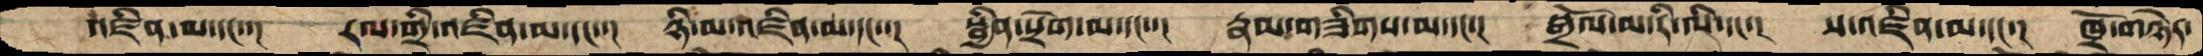འཛིན་མ་དང་་།  རལ་གྲི་འཛིན་མ་དང་་།  ཉི་མ་འཛིན་མ་དང་་།  སྦྱིན་སྲེག་མ་དང་་།  རྣམ་གཟིགས་མ་་དང་་།  སྒྲོལ་མ་རི་ལི་དང་་།  ས་འཛིན་མ་དང་་།  ཁྲོ་གཉེར་
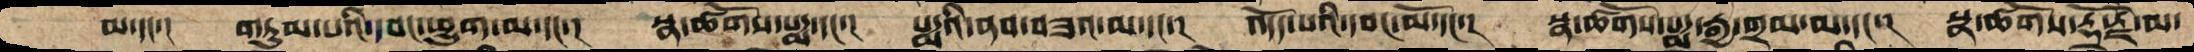མ་དང་།  གཏུམ་པའི་དབང་ཕྱུག་མ་དང་།  སྣ་ཚོགས་པདྨ་དང་།  པདྨའི་ནབ་བཟའ་མ་དང་།  འདོད་པའིདབང་མོ་དང་།  སྣ་ཚོགས་པདྨ་རྒྱ་གྲམ་མ་དང་།  སྣ་ཚོགས་རྡོ་རྗེ་མ་
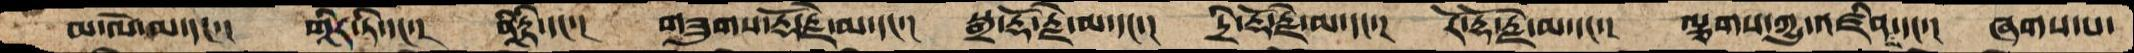མ་ལེ་མ་དང་།  གཱིར་ཏི་དང་།  ནཱིརྟི་དང་།  གཟུགས་རྡོ་རྗེ་མ་དང་།  སྒྲ་རྡོ་རྗེ་མ་དང་།  དྲི་རྡོ་རྗེ་མ་དང་།  རོ་རྡོ་རྗེ་མ་དང་།  ལྕགས་ཀྱུ་འཛིན་དང་།  ཞགས་པ་
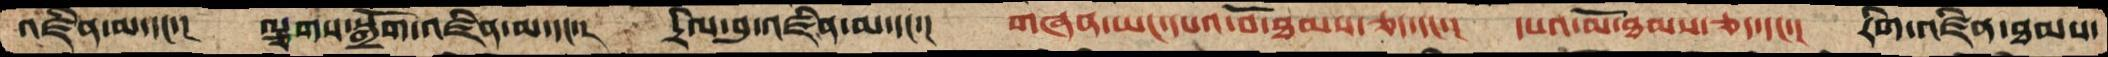འཛིན་མ་དང་།  ལྕགས་སྒྲོག་འཛིན་མ་དང་།  དྲིལ་བུ་འཛིན་མ་དང་།  གཞན་ཡང་དཔའ་བོ་ཐམས་ཅད་དང་།  དཔའ་མོ་ཐམས་ཅད་དང་།  རིག་འཛིན་ཐམས་
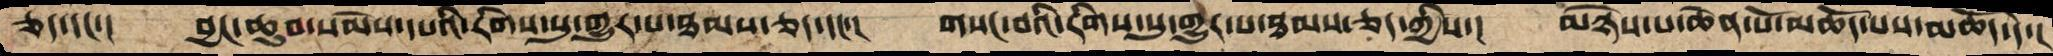ཅད་དང་།  བྱང་ཆུབ་སེམས་དཔའི་རིགས་སུ་གྱུར་པ་ཐམས་ཅད་དང་།  གསང་བའི་རིགས་སུ་གྱུར་པ་ཐམས་ཅད་ཀྱིས་།  མཉེས་པ་ཆེན་པོ་མཆོད་པས་མཆོད་དེ་།
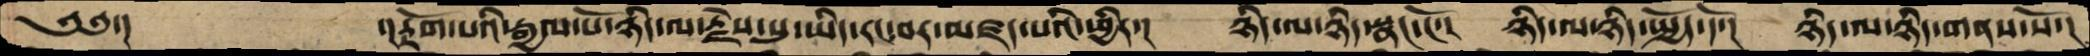༄༅་།               ་།རྟོག་པའི་རྒྱལ་པོ་ཉིད་ལ་རྗེས་སུ་ཡིད་རང་བར་མཛད་པའི་ཕྱིར་།  ཉིད་ལ་ཉིད་སྣང་ངོ་།  ཉིད་ལ་ཉིད་སྤྱོད་དོ་།  ཉིད་ལ་ཉིད་གནས་སོ་།
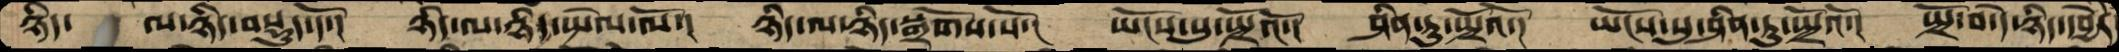ཉིད་   ལ་ཉིད་བསྡུད་དོ་།  ཉིད་ལ་ཉིད་སྤེལ་ལོ་།  ཉིད་ལ་ཉིད་སྒྲོགས་སོ་།  ཡོངས་སུ་སྤྲོའོ་།  ཤིན་ཏུ་སྤྲོའོ་།  ཡོངས་སུ་ཤིན་ཏུ་སྤྲོའོ་།  སྤྲོ་བ་དེ་ཉིད་དབྱེར་
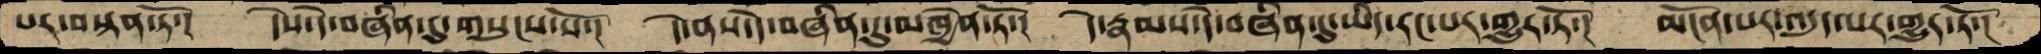པར་བསྟན་ཏོ་།  དེས་དེ་བཞིན་དུ་གསུངས་སོ་།  དེ་ནས་དེ་བཞིན་དུ་མཁྱེན་ཏོ་།  དེ་རྣམས་དེ་བཞིན་དུ་ཡིད་རང་པར་གྱུར་ཏོ་།  མངོན་པར་འདུད་པར་གྱུར་ཏོ་།
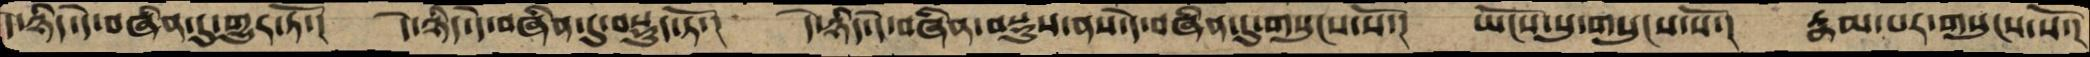དེ་ཉིད་དེ་བཞིན་དུ་གྱུར་ཏོ་།  དེ་ཉིད་དེ་བཞིན་དུ་བསྡུད་ཏོ་།  དེ་ཉིད་དེ་བཞིན་བསྡུས་ནས་དེ་བཞིན་དུ་གསུངས་སོ་།  ཡོངས་སུ་གསུངས་སོ་་།  རྣམ་པར་གསུངས་སོ་།
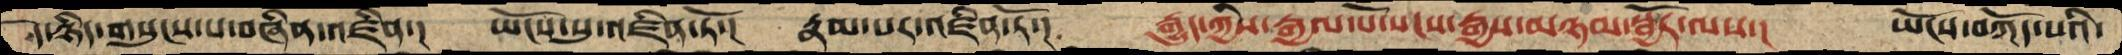དེ་ཉིད་གསུངས་པ་བཞིན་འཛིན་།  ཡོངས་སུ་འཛིན་ཏོ་།  རྣམ་པར་འཛིན་ཏོ་།  རྒྱུད་ཀྱིས་རྒྱལ་པོ་སངས་རྒྱས་མཉམ་སྦྱོར་ལས་།  ཡོངས་བཀོད་པའི་
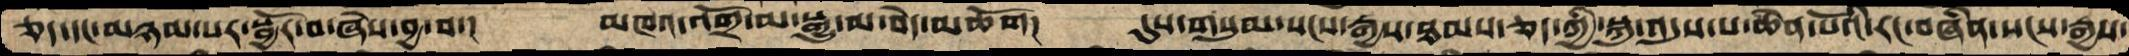ཅད་དང་མཉམ་པར་སྦྱོར་བ་ཞེས་བྱ་བ་།  མཁའ་འགྲོ་མ་སྒྱུ་མ་བདེ་མཆོག།  དུས་གསུམ་སངས་རྒྱས་ཐམས་ཅད་ཀྱི་སྐུ་འདུས་པ་ཆེན་པོའི་རང་བཞིན་སངས་རྒྱས་
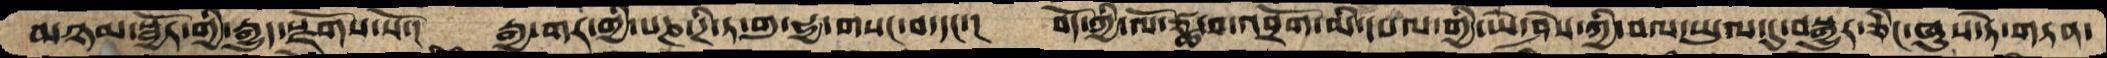མཉམ་སྦྱོར་གྱི་རྒྱུད་སྫོགས་སོ་།  རྒྱ་གར་གྱི་པཎ་ཌི་ཏ་གུ་ཧྱ་གསང་བ་དང་།  བོད་ཀྱི་ལོ་ཙྪ་བ་འབྲོག་མི་དཔལ་གྱི་ཡེ་ཤེས་ཀྱི་བལ་ཡུལ་དུ་བསྒྱུར་ཅིང་ཞུས་ཏེ་གཏན་
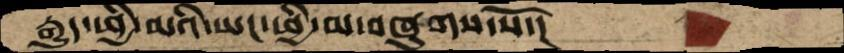རྒྱུད་ཕྱི་མའི་ཡང་ཕྱི་མ་བཞུགས་སོ་།
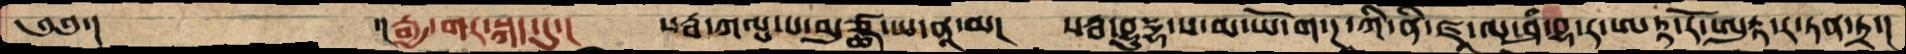༄༅་།       ་།རྒྱ་གར་སྐད་དུ་།  སརྦ་ཀལྤ་པ་མུཙྩ་ཡ་ནཱ་མ།  སརྦ་བྷུདྡྷ་ས་མ་ཡོ་ག་ཌཱ་ཀི་ནི་ཛཱ་ལ་ཤཾ་བྷ་ར་ཨཏྟ་རོ་ཨུཏྟ་ར་ཏན་ཏྲ་།
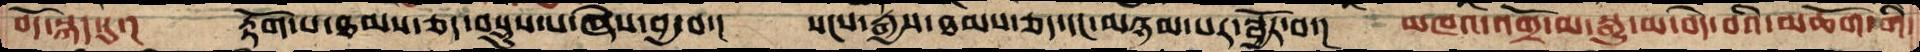བོད་སྐད་དུ་།  རྟོག་པ་ཐམས་ཅད་བསྡུས་པ་ཞེས་བྱ་བ་།  སངས་རྒྱས་ཐམས་ཅད་དང་མཉམ་པར་སྦྱོར་བ་།  མཁའ་འགྲོ་མ་སྒྱུ་མ་བདེ་བའི་མཆོག་གི་
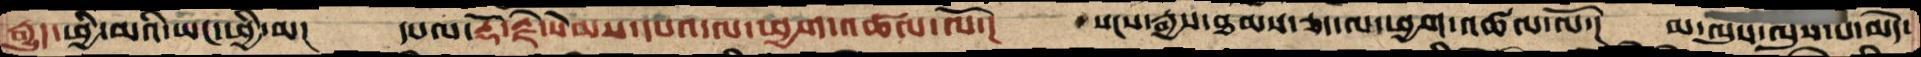རྒྱུད་ཕྱི་མའི་ཡང་ཕྱི་མ།  དཔལ་རྡོ་རྗེ་སེམས་དཔའ་ལ་ཕྱག་འཚལ་ལོ་།   སངས་རྒྱས་ཐམས་ཅད་ལ་ཕྱག་འཚལ་ལོ་།  མ་ལུས་ལུས་པ་མེད་
